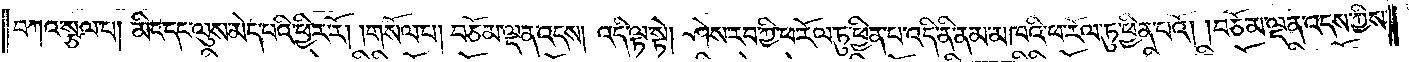བཀའ་སྩལ་པ། མིང་དང་ལུས་མེད་པའི་ཕྱིར་རོ། །གསོལ་པ། བཅོམ་ལྡན་འདས། འདི་ལྟ་སྟེ། ཤེས་རབ་ཀྱི་ཕ་རོལ་ཏུ་ཕྱིན་པ་འདི་ནི་ནམ་མཁའི་ཕ་རོལ་ཏུ་ཕྱིན་པའོ། །བཅོམ་ལྡན་འདས་ཀྱིས་
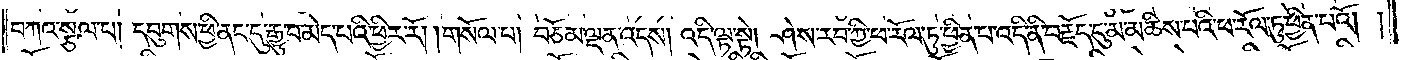བཀའ་སྩལ་པ། དབུགས་ཕྱི་ནང་དུ་རྒྱུ་བ་མེད་པའི་ཕྱིར་རོ། །གསོལ་པ། བཅོམ་ལྡན་འདས། འདི་ལྟ་སྟེ། ཤེས་རབ་ཀྱི་ཕ་རོལ་ཏུ་ཕྱིན་པ་འདི་ནི་བརྗོད་དུ་མ་མཆིས་པའི་ཕ་རོལ་ཏུ་ཕྱིན་པའོ། །
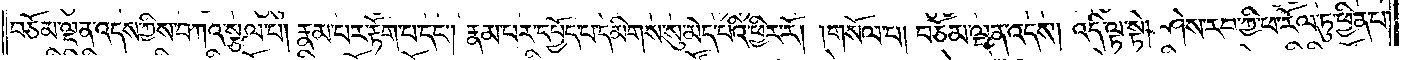བཅོམ་ལྡན་འདས་ཀྱིས་བཀའ་སྩལ་པ། རྣམ་པར་རྟོག་པ་དང༌། རྣམ་པར་དཔྱོད་པ་དམིགས་སུ་མེད་པའི་ཕྱིར་རོ། །གསོལ་པ། བཅོམ་ལྡན་འདས། འདི་ལྟ་སྟེ། ཤེས་རབ་ཀྱི་ཕ་རོལ་ཏུ་ཕྱིན་པ་
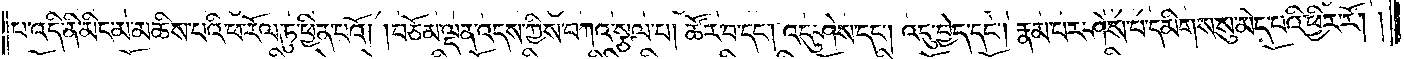པ་འདི་ནི་མིང་མ་མཆིས་པའི་ཕ་རོལ་ཏུ་ཕྱིན་པའོ། །བཅོམ་ལྡན་འདས་ཀྱིས་བཀའ་སྩལ་པ། ཚོར་བ་དང༌། འདུ་ཤེས་དང༌། འདུ་བྱེད་དང༌། རྣམ་པར་ཤེས་པ་དམིགས་སུ་མེད་པའི་ཕྱིར་རོ། །
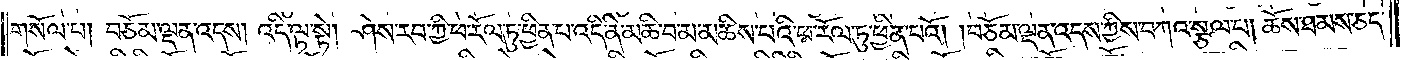གསོལ་པ། བཅོམ་ལྡན་འདས། འདི་ལྟ་སྟེ། ཤེས་རབ་ཀྱི་ཕ་རོལ་ཏུ་ཕྱིན་པ་འདི་ནི་མཆི་བ་མ་མཆིས་པའི་ཕ་རོལ་ཏུ་ཕྱིན་པའོ། །བཅོམ་ལྡན་འདས་ཀྱིས་བཀའ་སྩལ་པ། ཆོས་ཐམས་ཅད་
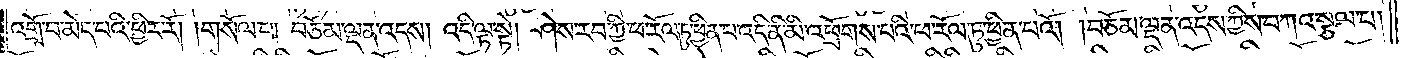འགྲོ་བ་མེད་པའི་ཕྱིར་རོ། །གསོལ་པ། བཅོམ་ལྡན་འདས། འདི་ལྟ་སྟེ། ཤེས་རབ་ཀྱི་ཕ་རོལ་ཏུ་ཕྱིན་པ་འདི་ནི་མི་འཕྲོགས་པའི་ཕ་རོལ་ཏུ་ཕྱིན་པའོ། །བཅོམ་ལྡན་འདས་ཀྱིས་བཀའ་སྩལ་པ།
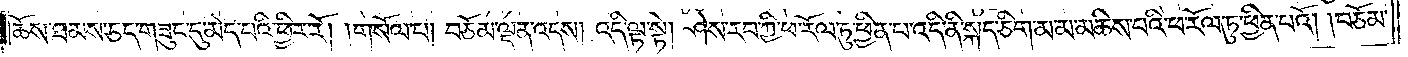ཆོས་ཐམས་ཅད་གཟུང་དུ་མེད་པའི་ཕྱིར་རོ། །གསོལ་པ། བཅོམ་ལྡན་འདས། འདི་ལྟ་སྟེ། ཤེས་རབ་ཀྱི་ཕ་རོལ་ཏུ་ཕྱིན་པ་འདི་ནི་སྐད་གཅིག་མ་མ་མཆིས་པའི་ཕ་རོལ་ཏུ་ཕྱིན་པའོ། །བཅོམ་
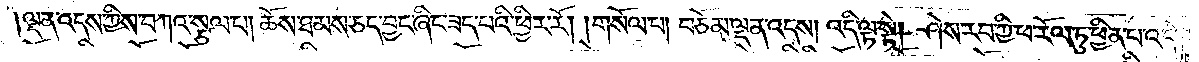ལྡན་འདས་ཀྱིས་བཀའ་སྩལ་པ། ཆོས་ཐམས་ཅད་བྱང་ཞིང་ཟད་པའི་ཕྱིར་རོ། །གསོལ་པ། བཅོམ་ལྡན་འདས། འདི་ལྟ་སྟེ། ཤེས་རབ་ཀྱི་ཕ་རོལ་ཏུ་ཕྱིན་པ་འདི་
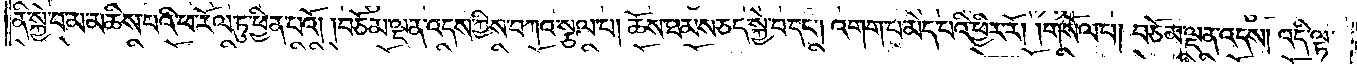ནི་སྐྱེ་བ་མ་མཆིས་པའི་ཕ་རོལ་ཏུ་ཕྱིན་པའོ། །བཅོམ་ལྡན་འདས་ཀྱིས་བཀའ་སྩལ་པ། ཆོས་ཐམས་ཅད་སྐྱེ་བ་དང༌། འགག་པ་མེད་པའི་ཕྱིར་རོ། །གསོལ་པ། བཅོམ་ལྡན་འདས། འདི་ལྟ་
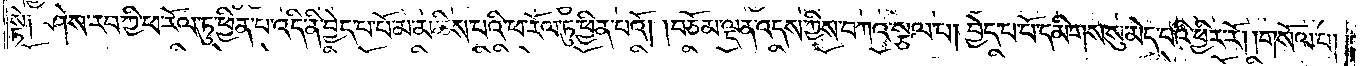སྟེ༑ ཤེས་རབ་ཀྱི་ཕ་རོལ་ཏུ་ཕྱིན་པ་འདི་ནི་བྱེད་པ་པོ་མ་མཆིས་པའི་ཕ་རོལ་ཏུ་ཕྱིན་པའོ། །བཅོམ་ལྡན་འདས་ཀྱིས་བཀའ་སྩལ་པ། བྱེད་པ་པོ་དམིགས་སུ་མེད་པའི་ཕྱིར་རོ། །གསོལ་པ།
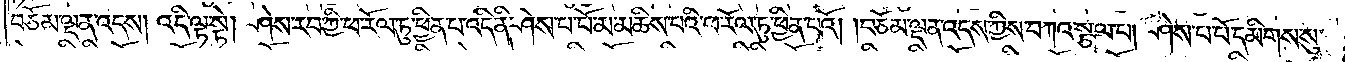བཅོམ་ལྡན་འདས། འདི་ལྟ་སྟེ། ཤེས་རབ་ཀྱི་ཕ་རོལ་ཏུ་ཕྱིན་པ་འདི་ནི་ཤེས་པ་པོ་མ་མཆིས་པའི་ཕ་རོལ་ཏུ་ཕྱིན་པའོ། །བཅོམ་ལྡན་འདས་ཀྱིས་བཀའ་སྩལ་པ། ཤེས་པ་པོ་དམིགས་སུ་
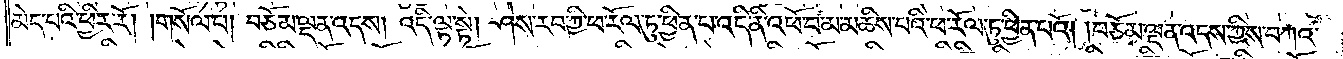མེད་པའི་ཕྱིར་རོ། །གསོལ་པ། བཅོམ་ལྡན་འདས། འདི་ལྟ་སྟེ། ཤེས་རབ་ཀྱི་ཕ་རོལ་ཏུ་ཕྱིན་པ་འདི་ནི་འཕོ་བ་མ་མཆིས་པའི་ཕ་རོལ་ཏུ་ཕྱིན་པའོ། །བཅོམ་ལྡན་འདས་ཀྱིས་བཀའ་
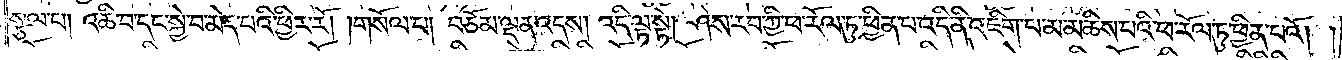སྩལ་པ། འཆི་བ་དང་སྐྱེ་བ་མེད་པའི་ཕྱིར་རོ། །གསོལ་པ། བཅོམ་ལྡན་འདས། འདི་ལྟ་སྟེ། ཤེས་རབ་ཀྱི་ཕ་རོལ་ཏུ་ཕྱིན་པ་འདི་ནི་འཇིག་པ་མ་མཆིས་པའི་ཕ་རོལ་ཏུ་ཕྱིན་པའོ། །
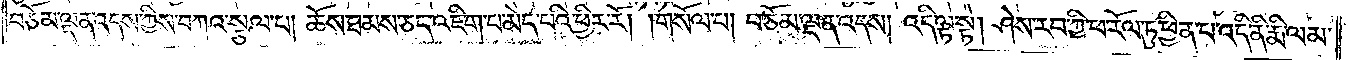བཅོམ་ལྡན་འདས་ཀྱིས་བཀའ་སྩལ་པ། ཆོས་ཐམས་ཅད་འཇིག་པ་མེད་པའི་ཕྱིར་རོ། །གསོལ་པ། བཅོམ་ལྡན་འདས། འདི་ལྟ་སྟེ། ཤེས་རབ་ཀྱི་ཕ་རོལ་ཏུ་ཕྱིན་པ་འདི་ནི་རྨི་ལམ་
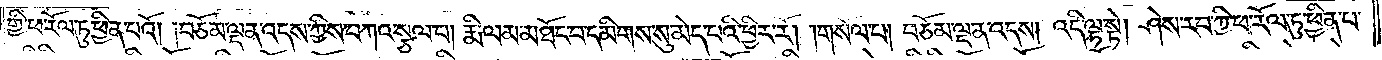གྱི་ཕ་རོལ་ཏུ་ཕྱིན་པའོ། །བཅོམ་ལྡན་འདས་ཀྱིས་བཀའ་སྩལ་པ། རྨི་ལམ་མཐོང་བ་དམིགས་སུ་མེད་པའི་ཕྱིར་རོ། །གསོལ་པ། བཅོམ་ལྡན་འདས། འདི་ལྟ་སྟེ། ཤེས་རབ་ཀྱི་ཕ་རོལ་ཏུ་ཕྱིན་པ་
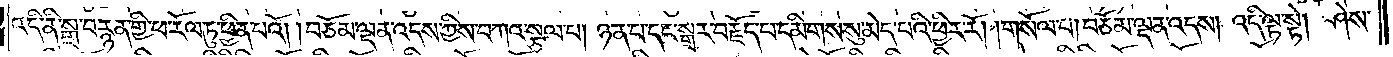འདི་ནི་སྒྲ་བརྙན་གྱི་ཕ་རོལ་ཏུ་ཕྱིན་པའོ། །བཅོམ་ལྡན་འདས་ཀྱིས་བཀའ་སྩལ་པ། ཉན་པ་དང་སྒྲར་བརྗོད་པ་དམིགས་སུ་མེད་པའི་ཕྱིར་རོ། །གསོལ་པ། བཅོམ་ལྡན་འདས། འདི་ལྟ་སྟེ། ཤེས་
